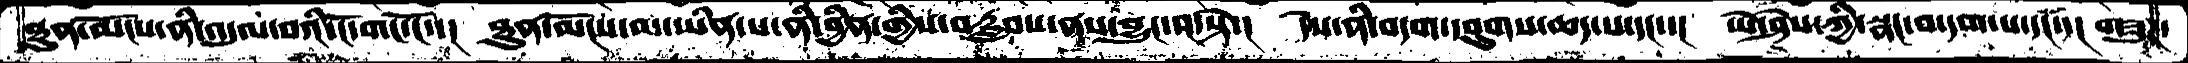ཐུན་མོངས་ནི་འདུལ་བའི་ངོ་གང་ངོ་་།  ཐུན་མོངས་མ་ཡིན་པ་ནི་བྱིན་གྱིས་བརླབས་ནས་བྱུང་བ་སྟེ་།  དེས་ནི་བདག་དབུགས་ཆད་པ་དང་་།  ཡེ་ཤེས་ཀྱི་སྣང་བ་དག་པ་དང་་།  གཟུཌ་
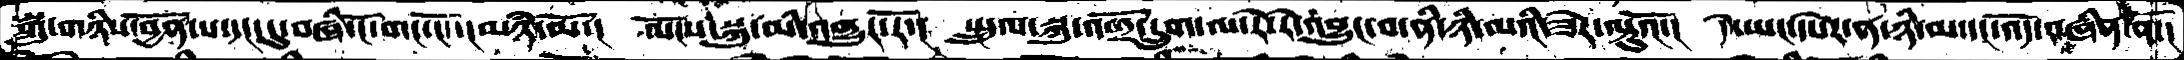སྐུ་གཉིས་བྱོན་པ་དང་དུ་བཞི་ངོ་གང་ངོ་ངམཉཾ་མོ་།  ལོངས་སྐུ་མི་འགྱུར་རོ་།  སྤྲུལ་སྐུ་འགྲོ་དྲུག་ལ་རེ་རེ་འབྱུང་བ་ནི་ཉི་མའི་ཟེར་ལྟུའོ་།  དེ་ཡང་དཔེར་ན་ཉི་མ་དང་འོད་བཞིན་ནོ་།
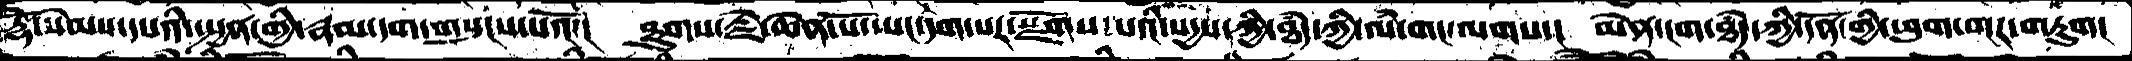རྡོེ་སེམས་དཔའི་སྤྱན་གྱི་རྣམ་དག་གསུངས་པའོ་།  ཐུགས་རྗེ་ཆེན་པོ་ཡང་དག་པར་སྫོགས་པའི་སདྱས་ཀྱི་ཐཾད་ཀྱི་ལཾ་གང་ལགས་།  མེན་ངག་ཐཾད་ཀྱི་དོན་གྱི་ཕུག་གར་གཏུག།
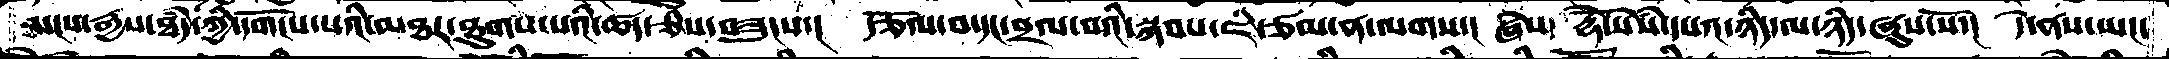སངས་རྒྱས་ཐཾད་ཀྱི་དགོངས་པའི་མཐར་ཐུགས་པའི་ཚད་ཅེས་བཟུངས་།  རྩོལ་བ་དང་བྲལ་བའི་སྐབས་ཇི་ཙམ་ན་ལགས་།  ཞེས་རྡོེ་སེཾས་དཔའ་་ཉིད་ལ་ཉིད་ཞུས་སོ་།  དེ་ནས་ཡང་
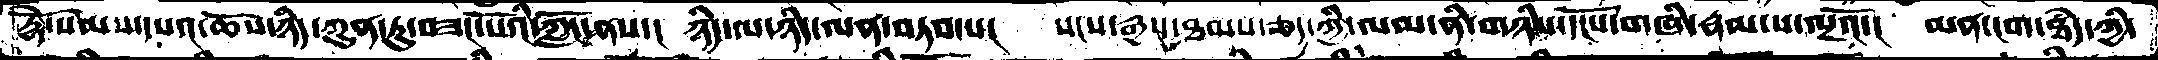རྡོེ་སེམས་དཔའ་ཆོས་ཉིད་ཀུན་ཏུ་བཟང་པོའི་ཀློང་ནས་།  ཉིད་ལ་ཉིད་ལན་བཏབ་པ།  སངས་རྒྱས་ཐམས་ཅད་ཀྱི་ལམ་ནི་གཉིས་དངོས་གཞི་རྣམ་པ་ལྔའོ་།  མན་ངག་ཐཾད་ཀྱི་
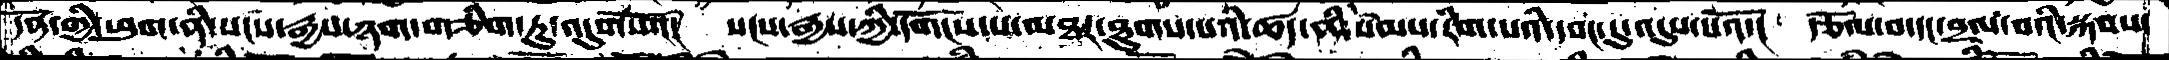དོན་གྱི་ཕུག་ནི་སངས་རྒྱས་ཉག་གཅིག་ཏུ་འདུས་པའོ་།  སངས་རྒྱས་ཀྱི་དགོངས་པ་མཐར་ཐུགས་པའི་ཚད་ནི་སེམས་རིག་པའི་དབང་དུ་འདུས་པའོ་།  རྩོལ་བ་དང་བྲལ་བའི་སྐབས་
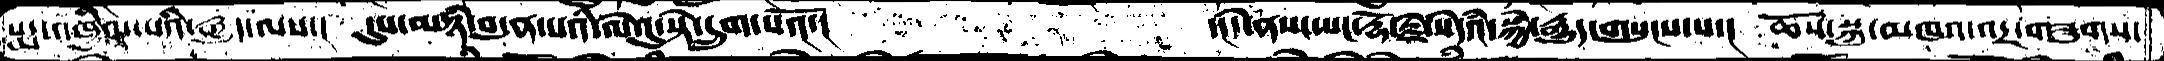པདྨ་འཁྱིལ་པའི་རྒྱུད་ལས་།  དུས་མཉཾ་བདུན་པའི་ལེའུ་སྟེ་དྲུག་པའོ་།         ་།དེ་ནས་ཡང་རྡོ་རྗེ་སེདའཾ་སྐྱེ་རྒྱུད་གསུངས་པ་།  ཆོས་སྐུ་མཁའ་འདྲ་གཟུགས་
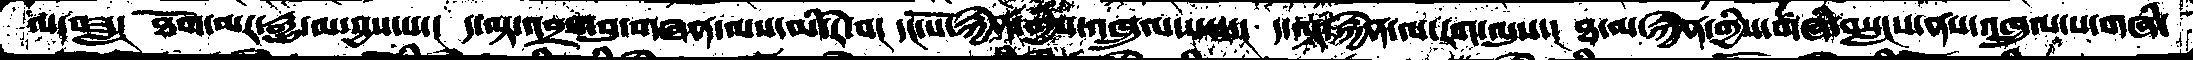ལ་བཟླ།  ཐོག་མར་རྒྱུ་མ་བྱས་པ་།  ད་ལྟ་འབྲས་བུ་གཞན་ལས་མི་རེ་བ།   དང་པོ་རྐྱེན་གྱིས་འཁྲུལ་པས་།  ད་ལྟ་རྐྱེན་ལ་རག་ལུས་།  ཐ་མ་རྐྱེན་གྱིས་གཞི་བསླངས་ནས་འཁྲུལ་པ་གཞི་
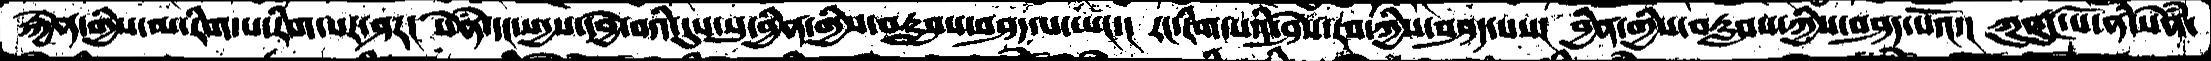རྐྱེན་གྱིས་མ་རིག་པ་རིག་པར་ཤར།  སེཾན་དང་སདྱས་དབྱེ་བའི་དུས་སུ་བྱིན་གྱིས་བརླབས་བཤད་པ་ཡང་།  རང་རིག་པའི་ཤེས་རབ་ཀྱིས་བཤད་པས།  བྱིན་གྱིས་བརླབས་ཀྱིས་བཤད་པའོ་།  ཀུནུཾང་པོ་ནི་སེཾན་
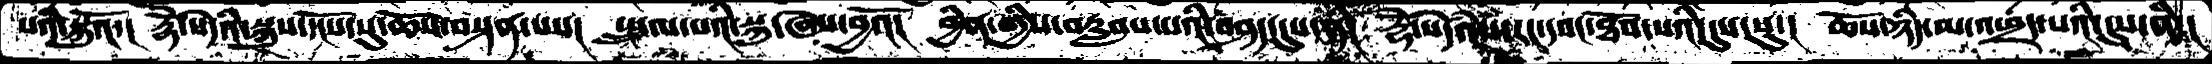པའི་སྐུའོ་།  རྡོེ་སེདཾའ་སྐུས་དངོས་སུ་ཆོས་བསྟན་པས།  སྤྲུལ་པའི་སྐུ་ཞེས་བྱའོ།  བྱིན་གྱིས་བརླབས་པའི་བཤད་དུས་ནི།  རྡོེ་སེདཾའས་རང་དབང་ཐོབ་པའི་དུས་སུ་།  ཆོས་ཉིད་མ་འཕྲད་པའི་དུས་ནི་།
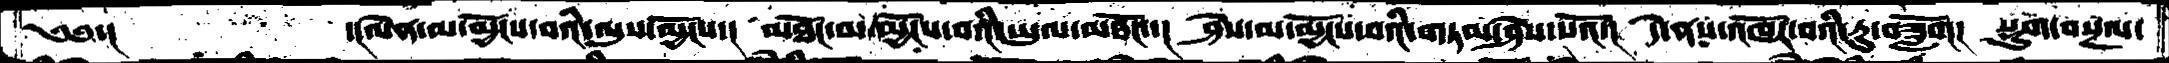༄༅་།        ་།ལེན་མ་མྱོངས་བའི་ལུས་མྱོངས་།  མཐོང་མ་མྱོངས་བའི་ཡུལ་མཐོང་་།  ཤེས་མ་མྱོངས་བའི་གཏམ་ཤེས་པའོ་།  དེ་ནས་འཁོར་བའི་རུ་བཟློག།   སྡུག་བསྔལ་
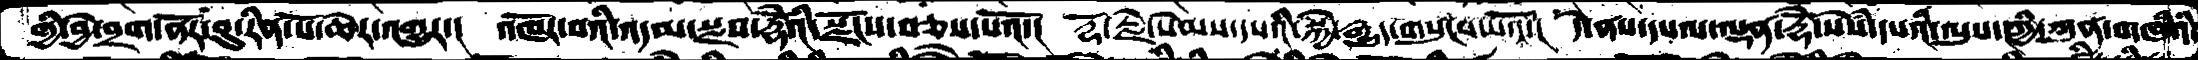གྱི་བྱེ་བྲག་ནོར་བུ་རིན་པོ་ཆེར་འགྱུར་།  འཁོར་བའི་འདམ་སྫབ་རྡོེའི་སྫོངས་བཅས་པའོ་།  རྡོ་རྗེ་སེམས་དཔའི་སྐྱེ་རྒྱུད་གསུངས་པའོ་།  དེ་ནས་དཔལ་ལྡན་རྡོེ་སེཾས་དཔའི་ལུས་ཀྱི་ཀུན་གཞིའི་
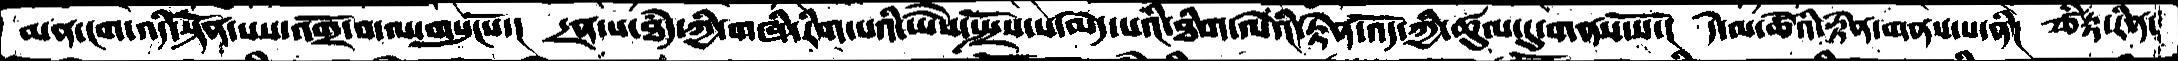མན་ངག་འདི་སྟོན་པས་འགྲོ་བ་ལ་གསུངསོ་།  དྲན་པ་ཐཾད་ཀྱི་གཞི་རིག་པའི་ཡཻས་སྤྲོས་པ་མེད་པའི་ཐིག་ལེའི་རྟེན་འོད་ཀྱི་ཚུལ་དུ་གནས་སོ་།   དེ་ལ་ཚེའི་རྟེན་གནས་པ་ནི།  ཙིཏྟ་རིན་
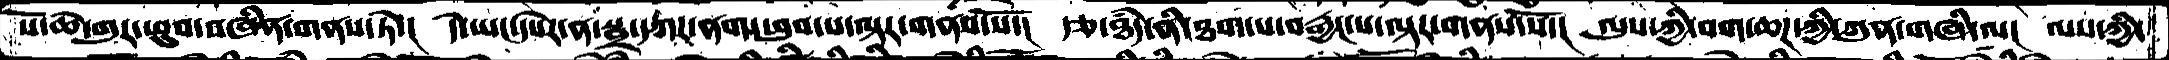པོ་ཆེ་གུར་ཕུབ་བཞིན་གནས་ཏེ་།  དེ་ཡང་དཔེར་ན་སྦྲ་དཀར་ནག་ཕུབ་པ་ལྟར་གནས་སོ་།  རྩ་ཐཾད་ནི་ཐག་པ་བརྒྱང་པ་ལྟར་གནས་སོ་།  ལུས་ཀྱི་བག་ཆཌ་ཀྱི་ཀུན་གཞི་ལ།  ལས་ཀྱི་
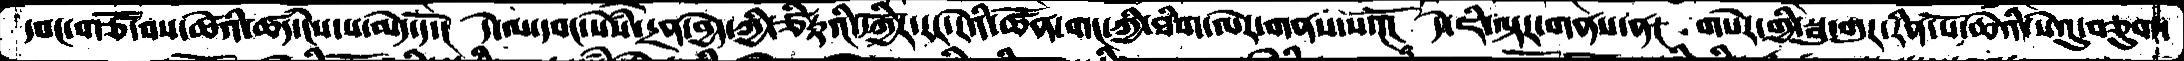དབང་གཙོ་བས་ཚེའི་ཚད་ངེས་པ་མེད་དོ་།  དེ་ལ་དབང་སེཾས་དྲན་བྱེད་ཀྱི་ཙིཏྟའི་དཀྱིོར་རང་རེའི་ཚོན་གང་ཀྱི་ཐིག་ལེར་གནས་པའོ་།  དེ་ཇི་ལྟར་གནས་ན།  གསེར་གྱི་སྦུ་གུར་རིན་པོ་ཆེའི་སེའུ་བཅུག་
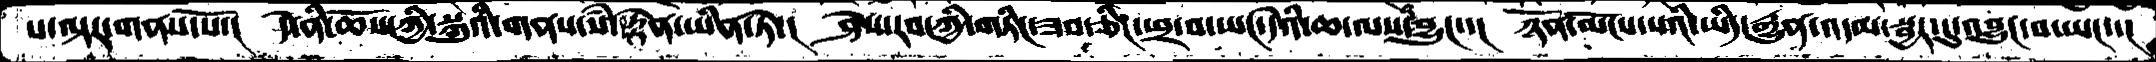པ་ལྟར་གནས་སོ་།  དེ་ནི་ཆོས་ཀྱི་སྐུའི་གནས་སཾ་རྟེན་ཡིན་ཏེ་།  ཤེས་རབ་ཀྱི་གཏིང་ཟབ་ཅིང་ཕྲ་བ་ཡང་དེའི་ཆ་ལས་བྱུང་་།  ཉོན་མོངས་པའི་ཡིད་རྒྱུན་འདམ་སྦྱར་དུ་འབྱུང་བ་ཡང་་།
